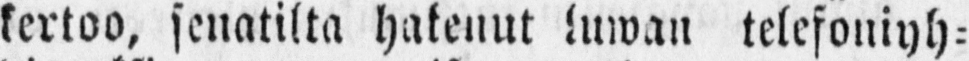kertoo, senatilta hakenut luwan telefoniyh-
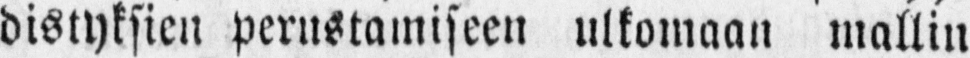distyksien perustamiseen ulkomaan mallin
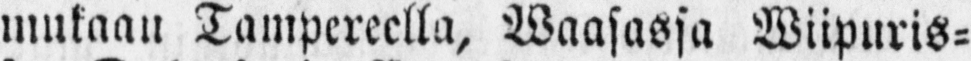mukaan Tampereella, Waasassa Wiipuris-
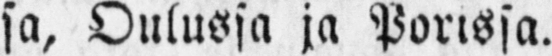sa, Oulussa ja Porissa.
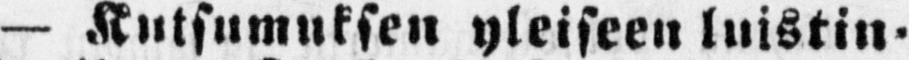— Kutsumuksen yleiseen luistin-
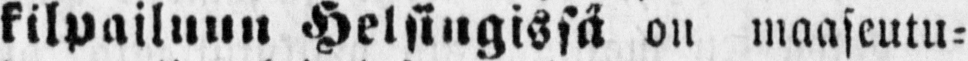kilpailuun Helsingissä on maaseutu-
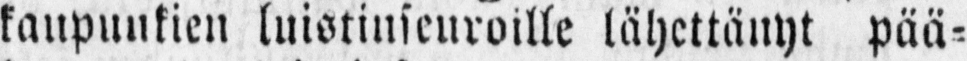kaupunkien luistin seuroille lähettänyt pää-
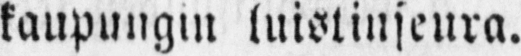kaupungin luistinseura.
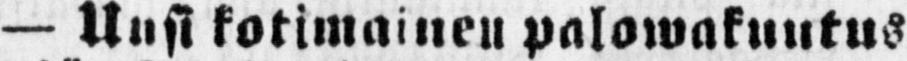— Uusi kotimainen palowakuutus
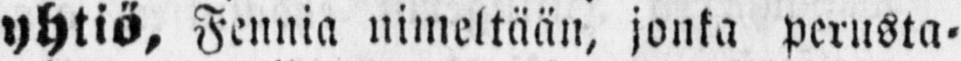yhtiö, Fennia nimeltään, jonka perusta-
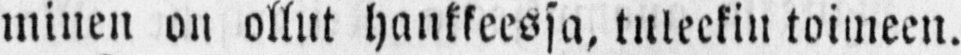minen on ollut hankkeessa, tuleekin toimeen.
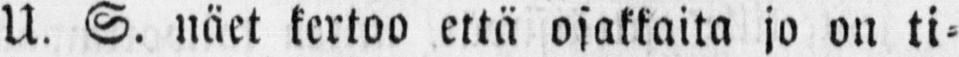U. S. näet kertoo että osakkaita jo on ti-
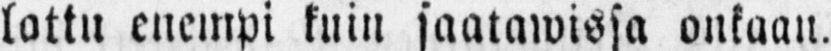lattu enempi kuin saatawissa onkaan.
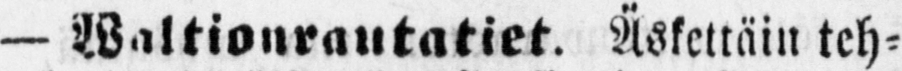— Waltionrautatiet. Äskettäin teh-
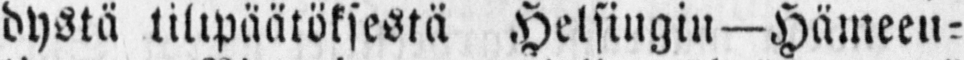dystä tilipäätöksestä Helsingin—Hämeen-
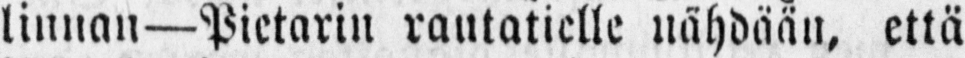linnan—Pietarin rautatielle nähdään, että
